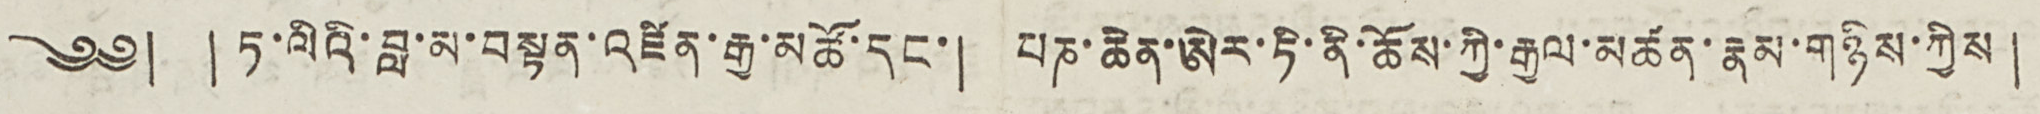༄༅། །ཏ་ལིའི་བླ་མ་བསྟན་འཛིན་རྒྱ་མཚོ་དང་། པཎ་ཆེན་ཨེར་ཏི་ནི་ཆོས་ཀྱི་རྒྱལ་མཚན་རྣམ་གཉིས་ཀྱིས།
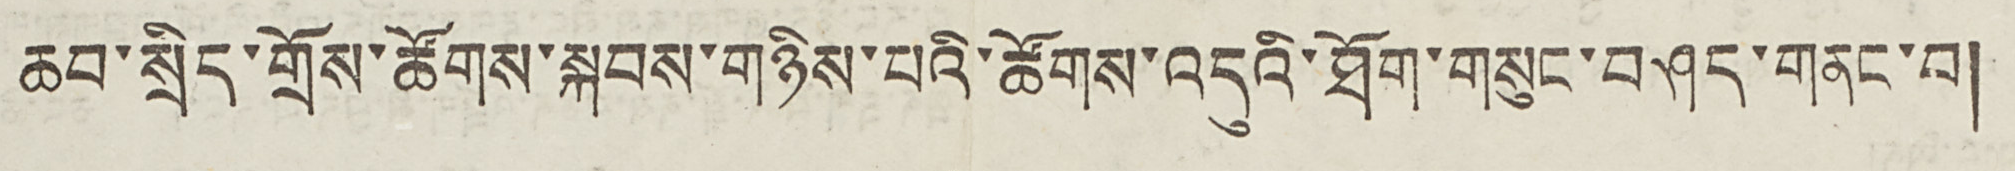ཆབ་སྲིད་གྲོས་ཚོགས་སྐབས་གཉིས་པའི་ཚོགས་འདུའི་ཐོག་གསུང་བཤད་གནང་བ།
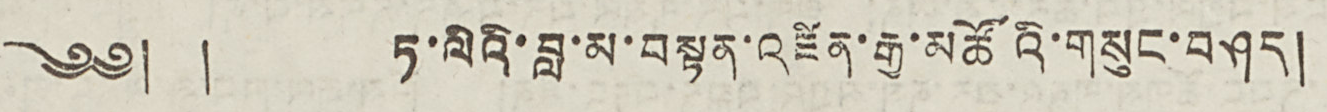༄༅། ། ཏ་ལིའི་བླ་མ་བསྟན་འཛིན་རྒྱ་མཚོའི་གསུང་བཤད།
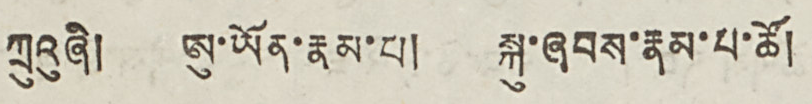ཀྲུའུ ཞི། ཨུ་ཡོན་རྣམ་པ། སྐུ་ཞབས་རྣམ་པ་ཚོ།
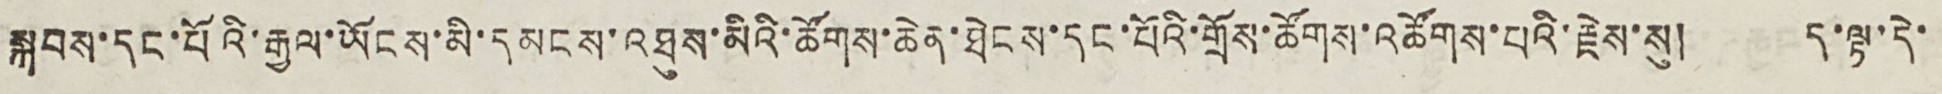སྐབས་དང་པོའི་རྒྱལ་ཡོངས་མི་དམངས་འཐུས་མིའི་ཚོགས་ཆེན་ཐེངས་དང་པོའི་གྲོས་ཚོགས་འཚོགས་པའི་རྗེས་སུ། ད་ལྟ་དེ་
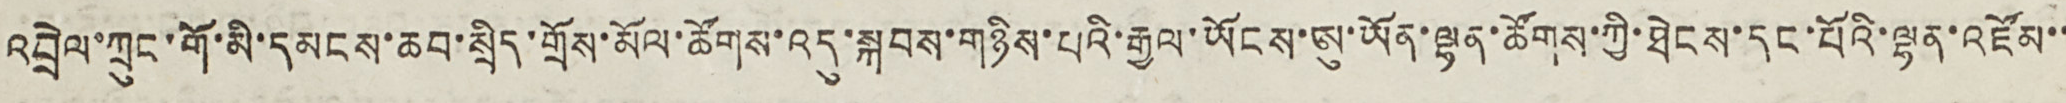འབྲེལ་ཀྲུང་གོ་མི་དམངས་ཆབ་སྲིད་གྲོས་མོལ་ཚོགས་འདུ་སྐབས་གཉིས་པའི་རྒྱལ་ཡོངས་ཨུ་ཡོན་ལྷན་ཚོགས་ཀྱི་ཐེངས་དང་པོའི་ལྷན་འཛོམ་་
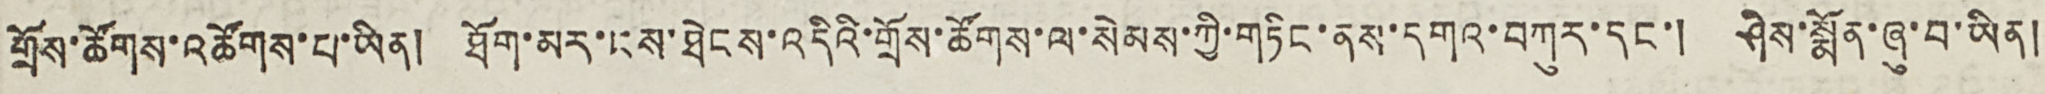གྲོས་ཚོགས་འཚོགས་པ་ཡིན། ཐོག་མར་ངས་ཐེངས་འདིའི་གྲོས་ཚོགས་ལ་སེམས་ཀྱི་གཏིང་ནས་དགའ་བཀུར་དང་། ཤེས་སྨོན་ཞུ་བ་ཡིན།
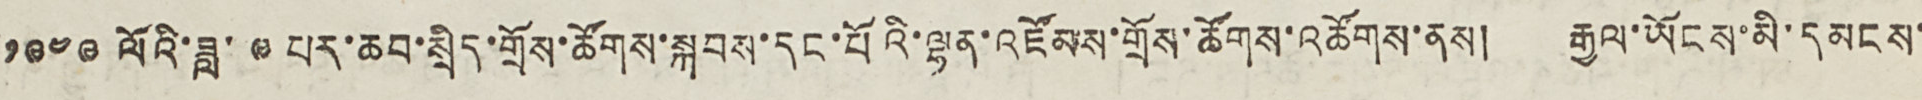༡༩༤༩ ལོའི་ཟླ་ ༩ པར་ཆབ་སྲིད་གྲོས་ཚོགས་སྐབས་དང་པོའི་ལྷན་འཛོམས་གྲོས་ཚོགས་འཚོགས་ནས། རྒྱལ་ཡོངས་མི་དམངས་
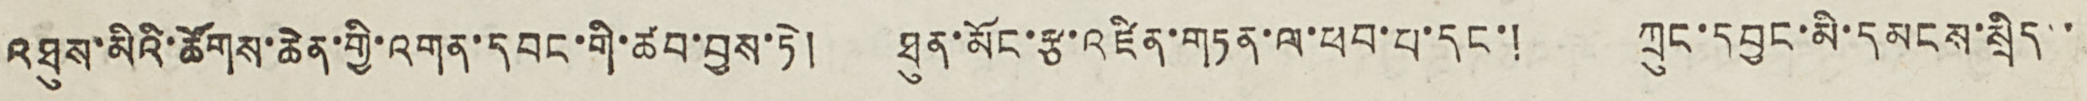འཐུས་མིའི་ཚོགས་ཆེན་གྱི་འགན་དབང་གི་ཚབ་བྱས་ཏེ། ཐུན་མོང་རྩ་འཛིན་གཏན་ལ་ཕབ་པ་དང་། ཀྲུང་དབྱང་མི་དམངས་སྲིད་་
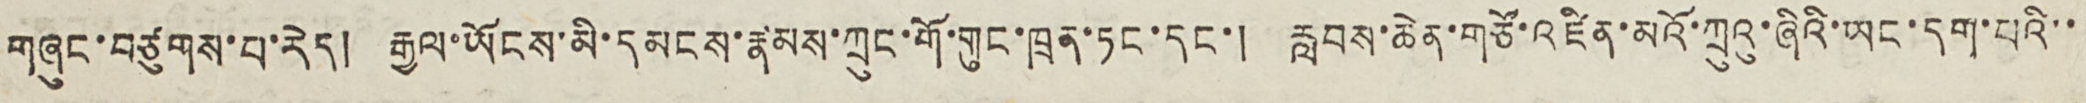གཞུང་བཙུགས་པ་རེད། རྒྱལ་ཡོངས་མི་དམངས་རྣམས་ཀྲུང་གོ་གུང་ཁྲན་ཏང་དང་། རླབས་ཆེན་གཙོ་འཛིན་མའོ་ཀྲུའུ་ཞིའི་ཡང་དག་པའི་་
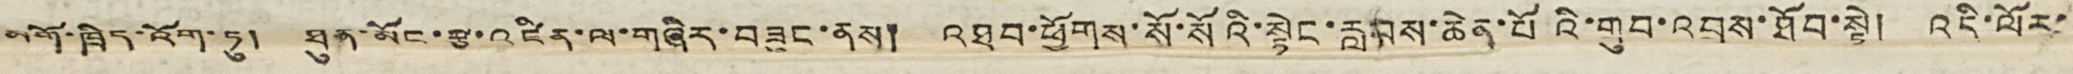མགོ་ཁྲིད་འོག་ཏུ། ཐུན་མོང་རྩ་འཛིན་ལ་གཞིར་བཟུང་ནས། འཐབ་ཕྱོགས་སོ་སོའི་སྟེང་རླབས་ཆེན་པོའི་གུབ་འབས་ཐོབ་སྟེ། འདི་ལོར་
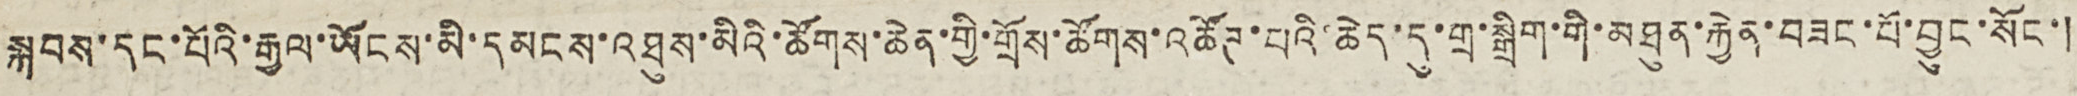སྐབས་དང་པོའི་རྒྱལ་ཡོངས་མི་དམངས་འཐུས་མིའི་ཚོགས་ཆེན་གྱི་གྲོས་ཚོགས་འཚོཊ་པའི་ཆེད་དུ་གྲ་སྒྲིག་གི་མཐུན་རྐྱེན་བཟང་པོ་བྱུང་སོང་།
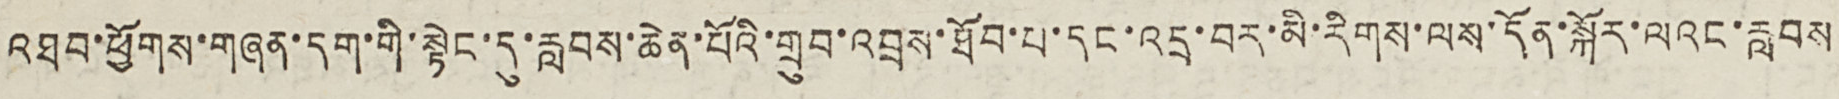འཐབ་ཕྱོགས་གཞན་དག་གི་སྟེང་དུ་རླབས་ཆེན་པོའི་གྲུབ་འབྲས་ཐོབ་པ་དང་འདྲ་བར་མི་རིགས་ལས་དོན་སྐོར་ལའང་རླབས
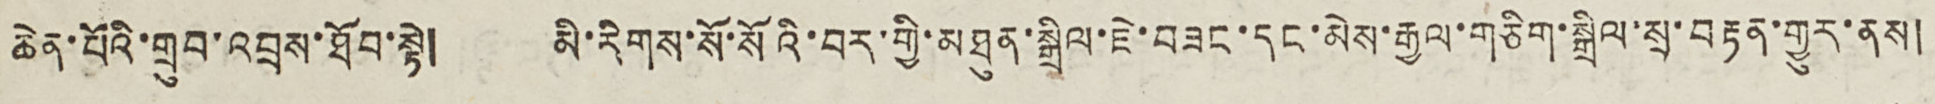ཆེན་པོའི་གྲུབ་འབྲས་ཐོབ་སྟེ། མི་རིགས་སོ་སོའི་བར་གྱི་མཐུན་སྒྲིལ་ཇེ་བཟང་དང་མེས་རྒྱལ་གཅིག་སྒྲིལ་སྲ་བརྟན་གྱུར་ནས།
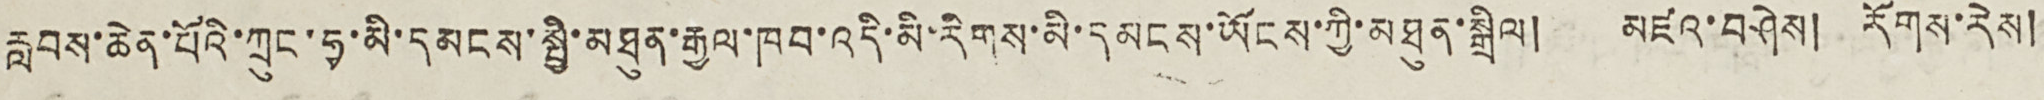རླབས་ཆེན་པོའི་ཀྲུང་ཧྭ་མི་དམངས་སྤྱི་མཐུན་རྒྱལ་ཁབ་འདི་མི་རིགས་མི་དམངས་ཡོངས་ཀྱི་མཐུན་སྒྲིལ། མཛའ་བཤེས། རོགས་རེས།
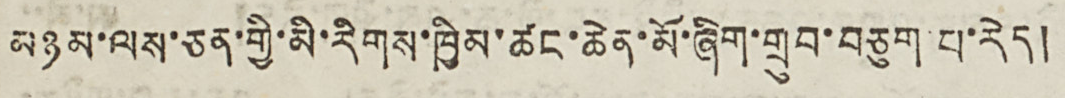མཉམ་ལས་ཅན་གྱི་མི་རིགས་ཁྱིམ་ཚང་ཆེན་མོ་ཞིག་གྲུབ་བཅུག་པ་རེད།
